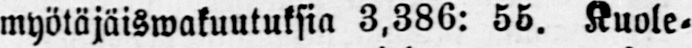myötäjäiswakuutuksia 3,386: 55. Kuole-
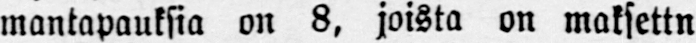mantapauksia on 8, joista on maksettn
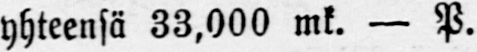yhteensä 33,000 mk. — P.
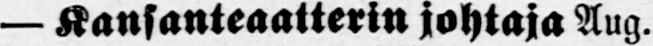— Kansanteaatterin johtaja Aug.
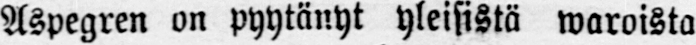Aspegren on pyytänyt yleisistä waroista
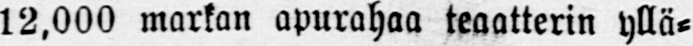12,000 markan apurahaa teaatterin yllä-
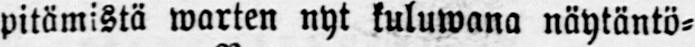pitämistä warten nyt kuluwana näytäntö-
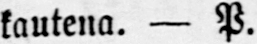kautena. — P.
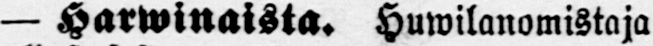— Harwinaista. Huwilanomistaja
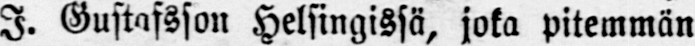J. Gustafsson Helsingissä, joka pitemmän
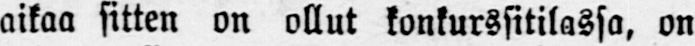aikaa sitten on ollut konkurssitilassa, on
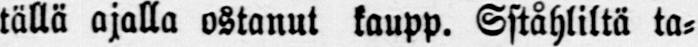tällä ajalla ostanut kaupp. Sståhliltä ta-
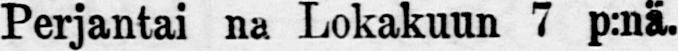Perjantai na Lokakuun 7 p:nä.
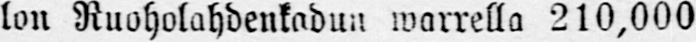lon Ruoholahdenkadun warrella 210,000
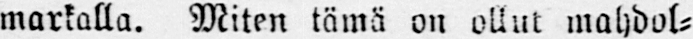markalla. Miten tämä on ollut mahdol-
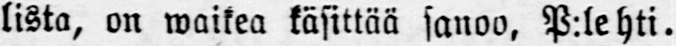lista, on waikea käsittää sanoo, P:lehti.
